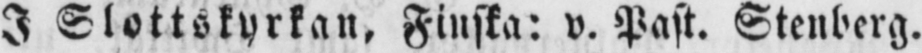I Slottskyrkan, Finska: v. Past. Stenberg.
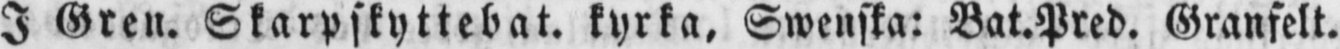I Gren. Skarpskyttebat. kyrka, Swenska: Bat.Pred. Granfelt.
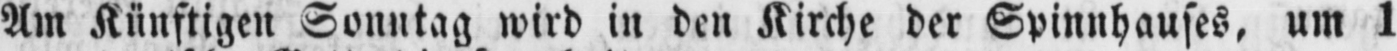Am Künftigen Sonntag wird in den Kirche der Spinnhauses, um 1
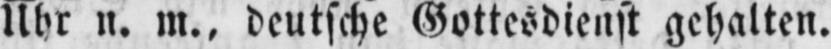Uhr n. m., deutsche Gottesdienst gehalten.
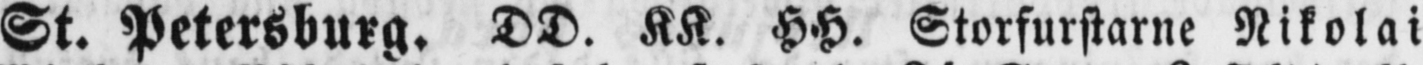St. Petersburg. DD. KK. HH. Storfurstarne Nikolai
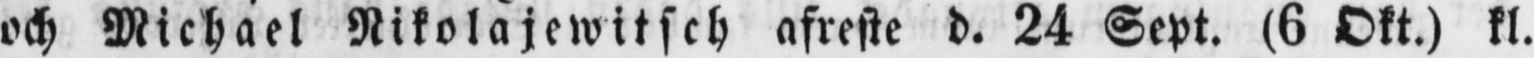och Michael Nikolajewitsch afreste d. 24 Sept. (6 Okt.) kl.
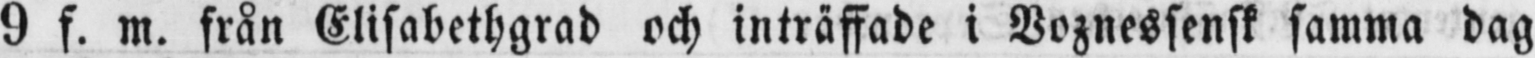9 f. m. från Elisabethgrad och inträffade i Voznessensk samma dag
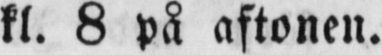kl. 8 på aftonen.
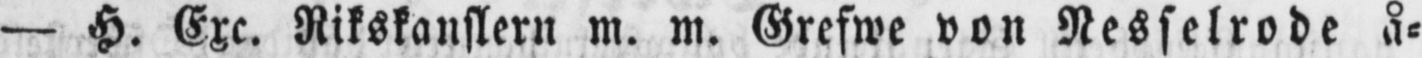— H. Exc. Rikskanslern m. m. Grefwe von Nesselrode å-
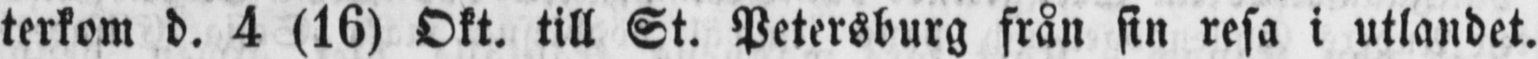terkom d. 4 (16) Okt. till St. Petersburg från sin resa i utlandet.
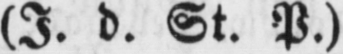(I. d. St. P.)
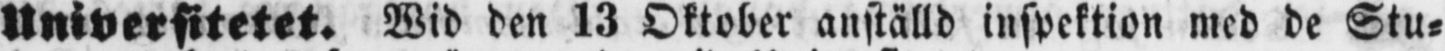Universitetet. Wid den 13 Oktober anställd inspektion med de Stu-
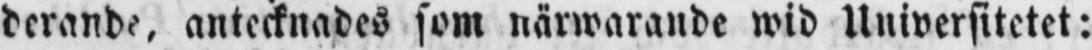derande, antecknades som närwarande wid Universitetet:
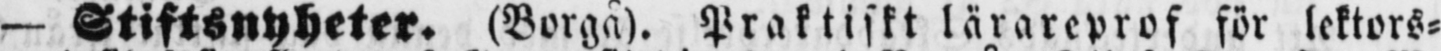— Stiftsnyheter. (Borgå). Praktiskt lärareprof för lektors-
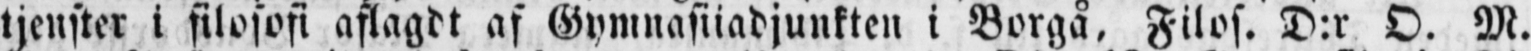tjenster i filosofi aflagdt af Gymnasiiadjunkten i Borgå, Filos. D:r O. M.
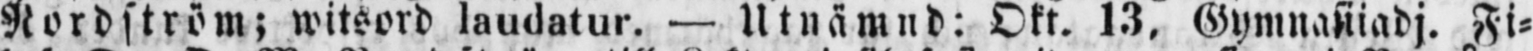Nordström; witsord laudatur. — Utnämnd: Okt. 13. Gymnasiiadj. Fi-
